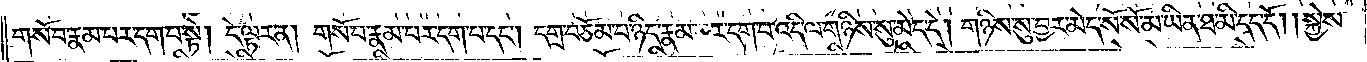གསོ་བ་རྣམ་པར་དག་པ་སྟེ། དེ་ལྟར་ན། གསོ་བ་རྣམ་པར་དག་པ་དང༌། དགྲ་བཅོམ་པ་ཉིད་རྣམ་པར་དག་པ་འདི་ལ་གཉིས་སུ་མེད་དེ། གཉིས་སུ་བྱར་མེད་སོ་སོ་མ་ཡིན་ཐ་མི་དད་དོ། །སྐྱེས་
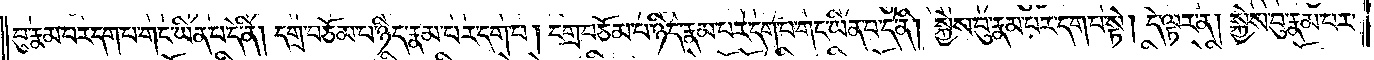བུ་རྣམ་པར་དག་པ་གང་ཡིན་པ་དེ་ནི། དགྲ་བཅོམ་པ་ཉིད་རྣམ་པར་དག་པ། དགྲ་བཅོམ་པ་ཉིད་རྣམ་པར་དག་པ་གང་ཡིན་པ་དེ་ནི། སྐྱེས་བུ་རྣམ་པར་དག་པ་སྟེ། དེ་ལྟར་ན། སྐྱེས་བུ་རྣམ་པར་
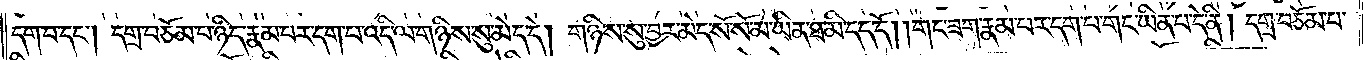དག་པ་དང༌། དགྲ་བཅོམ་པ་ཉིད་རྣམ་པར་དག་པ་འདི་ལ་གཉིས་སུ་མེད་དེ། གཉིས་སུ་བྱར་མེད་སོ་སོ་མ་ཡིན་ཐ་མི་དད་དོ། །གང་ཟག་རྣམ་པར་དག་པ་གང་ཡིན་པ་དེ་ནི། དགྲ་བཅོམ་པ་
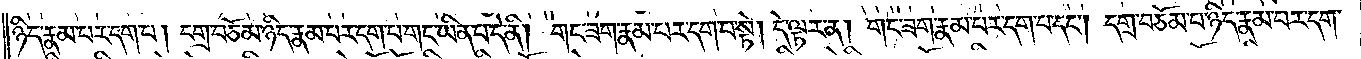ཉིད་རྣམ་པར་དག་པ། དགྲ་བཅོམ་པ་ཉིད་རྣམ་པར་དག་པ་གང་ཡིན་པ་དེ་ནི། གང་ཟག་རྣམ་པར་དག་པ་སྟེ། དེ་ལྟར་ན། གང་ཟག་རྣམ་པར་དག་པ་དང༌། དགྲ་བཅོམ་པ་ཉིད་རྣམ་པར་དག་
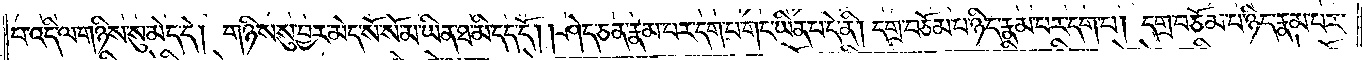པ་འདི་ལ་གཉིས་སུ་མེད་དེ། གཉིས་སུ་བྱར་མེད་སོ་སོ་མ་ཡིན་ཐ་མི་དད་དོ། །ཤེད་ཅན་རྣམ་པར་དག་པ་གང་ཡིན་པ་དེ་ནི། དགྲ་བཅོམ་པ་ཉིད་རྣམ་པར་དག་པ། དགྲ་བཅོམ་པ་ཉིད་རྣམ་པར་
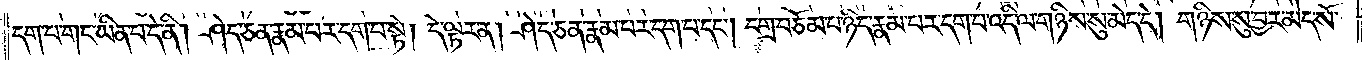དག་པ་གང་ཡིན་པ་དེ་ནི། ཤེད་ཅན་རྣམ་པར་དག་པ་སྟེ། དེ་ལྟར་ན། ཤེད་ཅན་རྣམ་པར་དག་པ་དང༌། དགྲ་བཅོམ་པ་ཉིད་རྣམ་པར་དག་པ་འདི་ལ་གཉིས་སུ་མེད་དེ། གཉིས་སུ་བྱར་མེད་སོ་
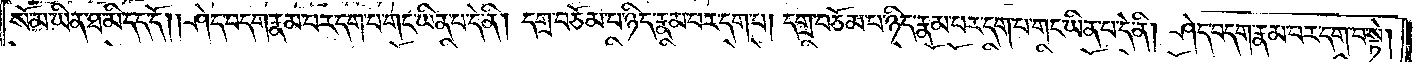སོ་མ་ཡིན་ཐ་མི་དད་དོ། །ཤེད་བདག་རྣམ་པར་དག་པ་གང་ཡིན་པ་དེ་ནི། དགྲ་བཅོམ་པ་ཉིད་རྣམ་པར་དག་པ། དགྲ་བཅོམ་པ་ཉིད་རྣམ་པར་དག་པ་གང་ཡིན་པ་དེ་ནི། ཤེད་བདག་རྣམ་པར་དག་པ་སྟེ།
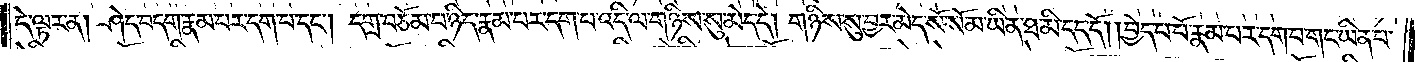དེ་ལྟར་ན། ཤེད་བདག་རྣམ་པར་དག་པ་དང༌། དགྲ་བཅོམ་པ་ཉིད་རྣམ་པར་དག་པ་འདི་ལ་གཉིས་སུ་མེད་དེ། གཉིས་སུ་བྱར་མེད་སོ་སོ་མ་ཡིན་ཐ་མི་དད་དོ། །བྱེད་པ་པོ་རྣམ་པར་དག་པ་གང་ཡིན་པ་
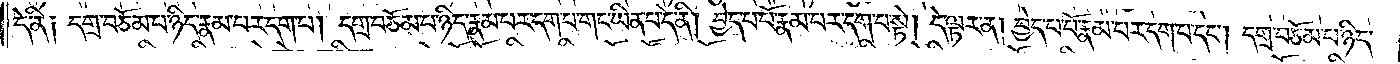དེ་ནི༑ དགྲ་བཅོམ་པ་ཉིད་རྣམ་པར་དག་པ། དགྲ་བཅོམ་པ་ཉིད་རྣམ་པར་དག་པ་གང་ཡིན་པ་དེ་ནི། བྱེད་པ་པོ་རྣམ་པར་དག་པ་སྟེ། དེ་ལྟར་ན། བྱེད་པ་པོ་རྣམ་པར་དག་པ་དང༌། དགྲ་བཅོམ་པ་ཉིད་
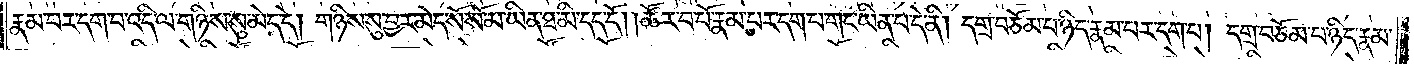རྣམ་པར་དག་པ་འདི་ལ་གཉིས་སུ་མེད་དེ། གཉིས་སུ་བྱར་མེད་སོ་སོ་མ་ཡིན་ཐ་མི་དད་དོ། །ཚོར་བ་པོ་རྣམ་པར་དག་པ་གང་ཡིན་པ་དེ་ནི། དགྲ་བཅོམ་པ་ཉིད་རྣམ་པར་དག་པ། དགྲ་བཅོམ་པ་ཉིད་རྣམ་
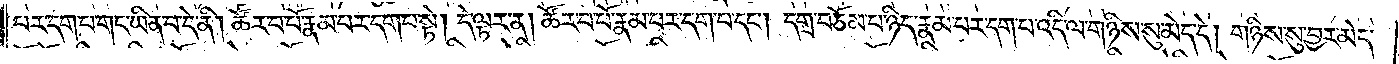པར་དག་པ་གང་ཡིན་པ་དེ་ནི། ཚོར་བ་པོ་རྣམ་པར་དག་པ་སྟེ། དེ་ལྟར་ན། ཚོར་བ་པོ་རྣམ་པར་དག་པ་དང༌། དགྲ་བཅོམ་པ་ཉིད་རྣམ་པར་དག་པ་འདི་ལ་གཉིས་སུ་མེད་དེ། གཉིས་སུ་བྱར་མེད་
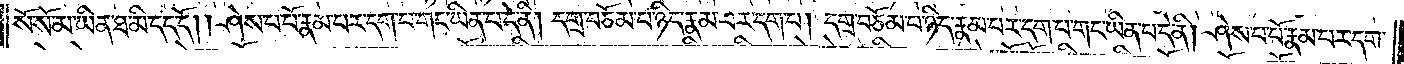སོ་སོ་མ་ཡིན་ཐ་མི་དད་དོ། །ཤེས་པ་པོ་རྣམ་པར་དག་པ་གང་ཡིན་པ་དེ་ནི། དགྲ་བཅོམ་པ་ཉིད་རྣམ་པར་དག་པ། དགྲ་བཅོམ་པ་ཉིད་རྣམ་པར་དག་པ་གང་ཡིན་པ་དེ་ནི། ཤེས་པ་པོ་རྣམ་པར་དག་
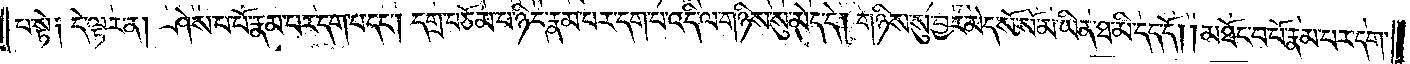པ་སྟེ༑ དེ་ལྟར་ན། ཤེས་པ་པོ་རྣམ་པར་དག་པ་དང༌། དགྲ་བཅོམ་པ་ཉིད་རྣམ་པར་དག་པ་འདི་ལ་གཉིས་སུ་མེད་དེ། གཉིས་སུ་བྱར་མེད་སོ་སོ་མ་ཡིན་ཐ་མི་དད་དོ། །མཐོང་བ་པོ་རྣམ་པར་དག་
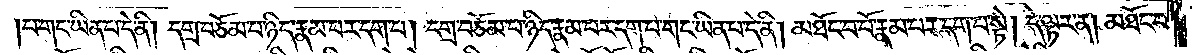པ་གང་ཡིན་པ་དེ་ནི། དགྲ་བཅོམ་པ་ཉིད་རྣམ་པར་དག་པ། དགྲ་བཅོམ་པ་ཉིད་རྣམ་པར་དག་པ་གང་ཡིན་པ་དེ་ནི། མཐོང་བ་པོ་རྣམ་པར་དག་པ་སྟེ། དེ་ལྟར་ན། མཐོང་བ་
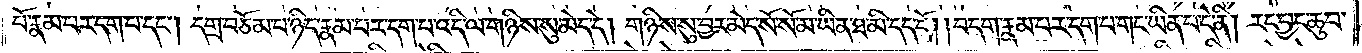པོ་རྣམ་པར་དག་པ་དང༌། དགྲ་བཅོམ་པ་ཉིད་རྣམ་པར་དག་པ་འདི་ལ་གཉིས་སུ་མེད་དེ། གཉིས་སུ་བྱར་མེད་སོ་སོ་མ་ཡིན་ཐ་མི་དད་དོ། །བདག་རྣམ་པར་དག་པ་གང་ཡིན་པ་དེ་ནི། རང་བྱང་ཆུབ་
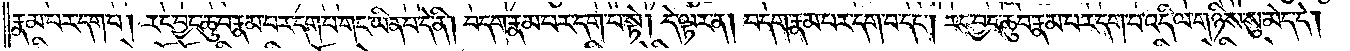རྣམ་པར་དག་པ། རང་བྱང་ཆུབ་རྣམ་པར་དག་པ་གང་ཡིན་པ་དེ་ནི། བདག་རྣམ་པར་དག་པ་སྟེ། དེ་ལྟར་ན། བདག་རྣམ་པར་དག་པ་དང༌། རང་བྱང་ཆུབ་རྣམ་པར་དག་པ་འདི་ལ་གཉིས་སུ་མེད་དེ།
